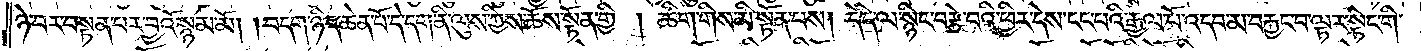ཉེ་བར་བསྟན་པར་བྱའོ་སྙམ་མོ། །བདག་ཉིད་ཆེན་པོ་དེ་དག་ནི་ལུས་ཀྱིས་ཆོས་སྟོན་གྱི་། ཚིག་གིས་མི་སྟོན་པས། དེ་དེ་ལ་སྙིང་བརྩེ་བའི་ཕྱིར་དེས་ངང་པའི་རྒྱལ་པོ་འདབ་མ་བརྐྱང་བ་ལྟར་སྟེང་གི་
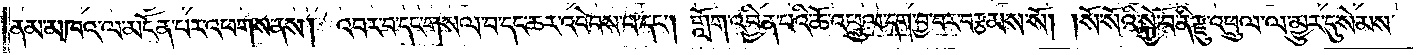ནམ་མཁའ་ལ་མངོན་པར་འཕགས་ནས། འབར་བ་དང་གསལ་བ་དང་ཆར་འབེབས་པ་དང༌། གློག་འབྱིན་པའི་ཆོ་འཕྲུལ་དག་བྱ་བར་བརྩམས་སོ། །སོ་སོའི་སྐྱེ་བོ་ནི་རྫུ་འཕྲུལ་ལ་མྱུར་དུ་སེམས་
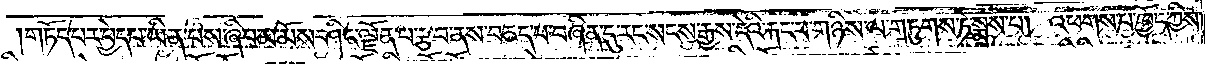གཏོད་པར་བྱེད་པ་ཡིན་པས་ཞིབ་མ་མོས་ཤིང་ལྗོན་པ་རྩ་བ་ནས་བཅད་པ་བཞིན་དུ་རང་སངས་རྒྱས་དེའི་རྐང་པ་གཉིས་ལ་གཏུགས་ཏེ་སྨྲས་པ། འཕགས་པ་ཁྱོད་ཀྱིས་
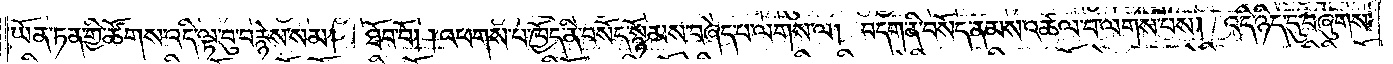ཡོན་ཏན་གྱི་ཚོགས་འདི་ལྟ་བུ་བརྙེས་སམ། ཐོབ་བོ། །འཕགས་པ་ཁྱོད་ནི་བསོད་སྙོམས་བཞེད་པ་ལགས་ལ། བདག་ནི་བསོད་ནམས་འཚལ་བ་ལགས་པས། འདི་ཉིད་དུ་བཞུགས་
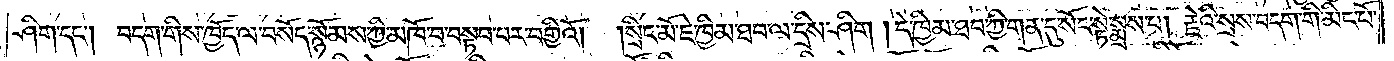ཤིག་དང༌། བདག་གིས་ཁྱོད་ལ་བསོད་སྙོམས་ཀྱི་མཁོ་བ་བསྟབ་པར་བགྱིའོ། །སྲིང་མོ་ཇེ་ཁྱིམ་ཐབ་ལ་དྲིས་ཤིག །དེ་ཁྱིམ་ཐབ་ཀྱི་གན་དུ་སོང་སྟེ་སྨྲས་པ། རྗེའི་སྲས་བདག་གི་མིང་པོ་
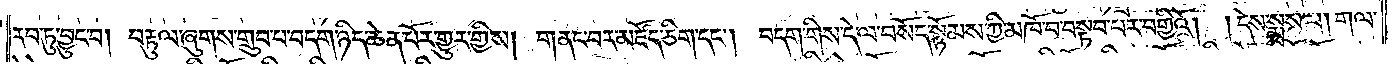རབ་ཏུ་བྱུང་བ། བརྟུལ་ཞུགས་གྲུབ་པ་བདག་ཉིད་ཆེན་པོར་གྱུར་གྱིས། གནང་བར་མཛོད་ཅིག་དང༌། བདག་གིས་དེ་ལ་བསོད་སྙོམས་ཀྱི་མཁོ་བ་བསྟབ་པར་བགྱིའོ། །དེས་སྨྲས་པ། གལ་
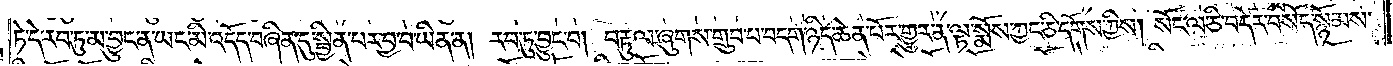ཏེ་དེ་རབ་ཏུ་མ་བྱུང་ན་ཡང་མི་འདོད་བཞིན་དུ་སྦྱིན་པར་བྱ་བ་ཡིན་ན། རབ་ཏུ་བྱུང་བ། བརྟུལ་ཞུགས་གྲུབ་པ་བདག་ཉིད་ཆེན་པོར་གྱུར་ན་ལྟ་སྨོས་ཀྱང་ཅི་དགོས་ཀྱིས། སོང་ལ་ཅི་བདེར་བསོད་སྙོམས་
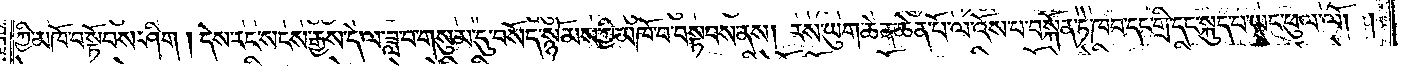ཀྱི་མཁོ་བ་སྟོབས་ཤིག །དེས་རང་སངས་རྒྱས་དེ་ལ་ཟླ་བ་གསུམ་དུ་བསོད་སྙོམས་ཀྱི་མཁོ་བ་བསྟབས་ནས། རས་ཡུག་ཆེན་ཆེན་པོ་ལ་འོས་པ་བསྐོན་ཏེ་ཁབ་དང་གྲི་དང་སྐུད་པ་ཡང་ཕུལ་ལོ། །
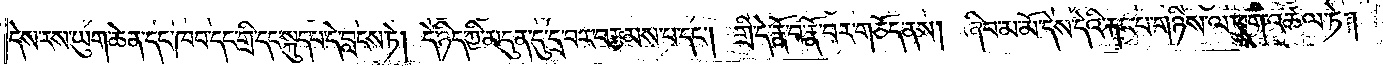དེས་རས་ཡུག་ཆེན་དང་ཁབ་དང་གྲི་དང་སྐུད་པ་དེ་བླངས་ཏེ། དེ་ཉིད་ཀྱི་མདུན་དུ་དྲ་བར་བརྩམས་པ་དང༌། གྲི་དེ་རྣོ་བ་རྣོ་བར་གཅོད་ནས། ཞིབ་མ་མོ་དེས་དེའི་རྐང་པ་གཉིས་ལ་ཕྱག་འཚལ་ཏེ།
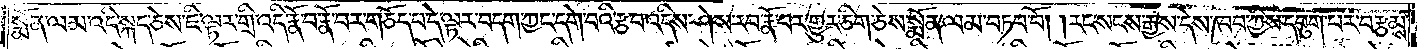སྨོན་ལམ་འདི་སྐད་ཅེས་ཇི་ལྟར་གྲི་འདི་རྣོ་བ་རྣོ་བར་གཅོད་པ་དེ་ལྟར་བདག་ཀྱང་དགེ་བའི་རྩ་བ་འདིས་ཤེས་རབ་རྣོ་བར་གྱུར་ཅིག་ཅེས་སྨོན་ལམ་བཏབ་བོ། །རང་སངས་རྒྱས་དེས་ཁབ་ཀྱིས་དབུག་པར་བརྩམས་
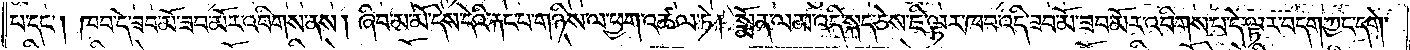པ་དང༌། ཁབ་དེ་ཟབ་མོ་ཟབ་མོར་འབིགས་ནས། ཞིབ་མ་མོ་དེས་དེའི་རྐང་པ་གཉིས་ལ་ཕྱག་འཚལ་ཏེ། སྨོན་ལམ་འདི་སྐད་ཅེས་ཇི་ལྟར་ཁབ་འདི་ཟབ་མོ་ཟབ་མོར་འབིགས་པ་དེ་ལྟར་བདག་ཀྱང་དགེ་
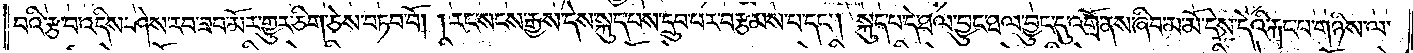བའི་རྩ་བ་འདིས་ཤེས་རབ་ཟབ་མོར་གྱུར་ཅིག་ཅེས་བཏབ་བོ། །རང་སངས་རྒྱས་དེས་སྐུད་པས་དྲུབ་པར་བརྩམས་པ་དང༌། སྐུད་པ་དེ་ཐལ་བྱུང་ཐལ་བྱུང་དུ་འགྲོ་ནས་ཞིབ་མ་མོ་དེས་དེའི་རྐང་པ་གཉིས་ལ་
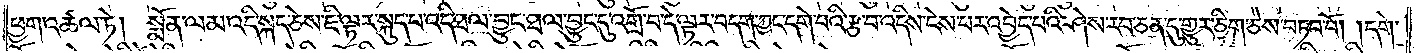ཕྱག་འཚལ་ཏེ། སྨོན་ལམ་འདི་སྐད་ཅེས་ཇི་ལྟར་སྐུད་པ་འདི་ཐལ་བྱུང་ཐལ་བྱུང་དུ་འགྲོ་བ་དེ་ལྟར་བདག་ཀྱང་དགེ་བའི་རྩ་བ་འདིས་ངེས་པར་འབྱེད་པའི་ཤེས་རབ་ཅན་དུ་གྱུར་ཅིག་ཅེས་བཏབ་བོ། །དགེ་
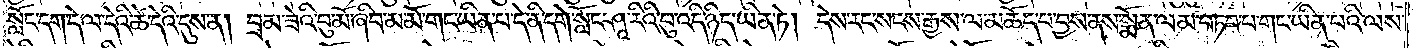སློང་དག་དེ་ལ་དེའི་ཚེ་དེའི་དུས་ན། བྲམ་ཟེའི་བུ་མོ་ཞིབ་མ་མོ་གང་ཡིན་པ་དེ་ནི་དགེ་སློང་ཤཱ་རིའི་བུ་འདི་ཉིད་ཡིན་ཏེ། དེས་རང་སངས་རྒྱས་ལ་མཆོད་པ་བྱས་ནས་སྨོན་ལམ་བཏབ་པ་གང་ཡིན་པའི་ལས་
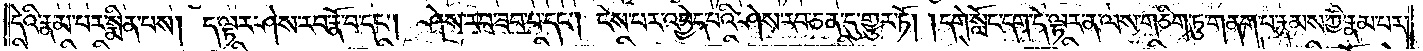དེའི་རྣམ་པར་སྨིན་པས། ད་ལྟར་ཤེས་རབ་རྣོ་བ་དང༌། ཤེས་རབ་ཟབ་པ་དང༌། ངེས་པར་འབྱེད་པའི་ཤེས་རབ་ཅན་དུ་གྱུར་ཏོ། །དགེ་སློང་དག་དེ་ལྟར་ན་ལས་གཅིག་ཏུ་གནག་པ་རྣམས་ཀྱི་རྣམ་པར་
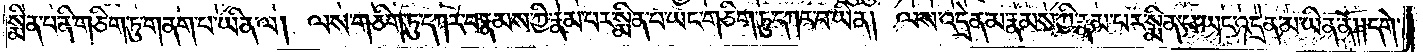སྨིན་པ་ནི་གཅིག་ཏུ་གནག་པ་ཡིན་ལ།  ལས་གཅིག་ཏུ་དཀར་བ་རྣམས་ཀྱི་རྣམ་པར་སྨིན་པ་ཡང་གཅིག་ཏུ་དཀར་བ་ཡིན། ལས་འདྲེན་མ་རྣམས་ཀྱི་རྣམ་པར་སྨིན་པ་ཡང་འདྲེན་མ་ཡིན་ནོ། །དགེ་
